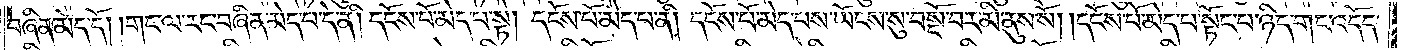བཞིན་མེད་དོ། །གང་ལ་རང་བཞིན་མེད་པ་དེ་ནི། དངོས་པོ་མེད་པ་སྟེ། དངོས་པོ་མེད་པ་ནི། དངོས་པོ་མེད་པས་ཡོངས་སུ་བསྔོ་བར་མི་ནུས་སོ། །དངོས་པོ་མེད་པ་སྟོང་པ་ཉིད་གང་འདོད་
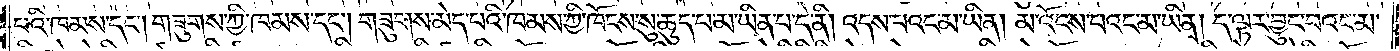པའི་ཁམས་དང༌། གཟུགས་ཀྱི་ཁམས་དང༌། གཟུགས་མེད་པའི་ཁམས་ཀྱི་ཁོངས་སུ་ཆུད་པ་མ་ཡིན་པ་དེ་ནི། འདས་པའང་མ་ཡིན། མ་འོངས་པའང་མ་ཡིན། ད་ལྟར་བྱུང་བའང་མ་
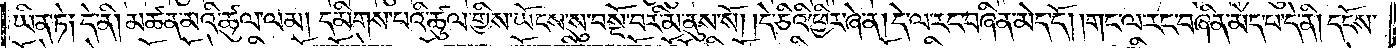ཡིན་ཏེ༑ དེ་ནི། མཚན་མའི་ཚུལ་ལམ། དམིགས་པའི་ཚུལ་གྱིས་ཡོངས་སུ་བསྔོ་བར་མི་ནུས་སོ། །དེ་ཅིའི་ཕྱིར་ཞེ་ན། དེ་ལ་རང་བཞིན་མེད་དོ། །གང་ལ་རང་བཞིན་མེད་པ་དེ་ནི། དངོས་
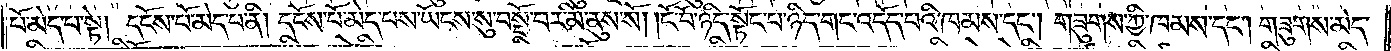པོ་མེད་པ་སྟེ། དངོས་པོ་མེད་པ་ནི། དངོས་པོ་མེད་པས་ཡོངས་སུ་བསྔོ་བར་མི་ནུས་སོ། །ངོ་བོ་ཉིད་སྟོང་པ་ཉིད་གང་འདོད་པའི་ཁམས་དང༌། གཟུགས་ཀྱི་ཁམས་དང༌། གཟུགས་མེད་
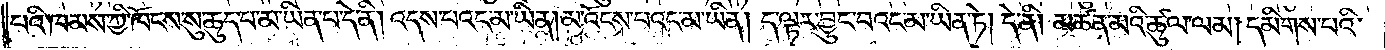པའི་ཁམས་ཀྱི་ཁོངས་སུ་ཆུད་པ་མ་ཡིན་པ་དེ་ནི། འདས་པའང་མ་ཡིན། མ་འོངས་པའང་མ་ཡིན། ད་ལྟར་བྱུང་བའང་མ་ཡིན་ཏེ། དེ་ནི། མཚན་མའི་ཚུལ་ལམ། དམིགས་པའི་
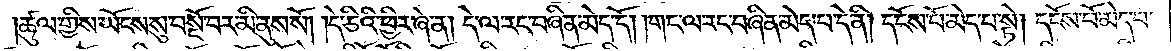ཚུལ་གྱིས་ཡོངས་སུ་བསྔོ་བར་མི་ནུས་སོ། །དེ་ཅིའི་ཕྱིར་ཞེ་ན། དེ་ལ་རང་བཞིན་མེད་དོ། །གང་ལ་རང་བཞིན་མེད་པ་དེ་ནི། དངོས་པོ་མེད་པ་སྟེ། དངོས་པོ་མེད་པ་
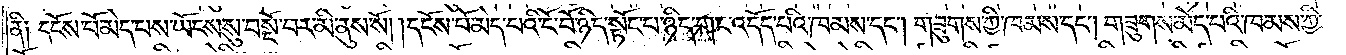ནི༑ དངོས་པོ་མེད་པས་ཡོངས་སུ་བསྔོ་བར་མི་ནུས་སོ། །དངོས་པོ་མེད་པའི་ངོ་བོ་ཉིད་སྟོང་པ་ཉིད་གང་འདོད་པའི་ཁམས་དང༌། གཟུགས་ཀྱི་ཁམས་དང༌། གཟུགས་མེད་པའི་ཁམས་ཀྱི་
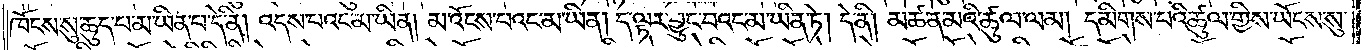ཁོངས་སུ་ཆུད་པ་མ་ཡིན་པ་དེ་ནི། འདས་པའང་མ་ཡིན། མ་འོངས་པའང་མ་ཡིན། ད་ལྟར་བྱུང་པའང་མ་ཡིན་ཏེ། དེ་ནི། མཚན་མའི་ཚུལ་ལམ། དམིགས་པའི་ཚུལ་གྱིས་ཡོངས་སུ་
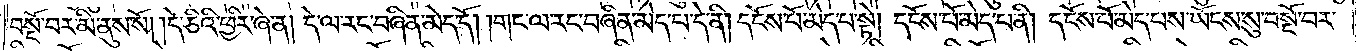བསྔོ་བར་མི་ནུས་སོ། །དེ་ཅིའི་ཕྱིར་ཞེ་ན། དེ་ལ་རང་བཞིན་མེད་དོ། །གང་ལ་རང་བཞིན་མེད་པ་དེ་ནི། དངོས་པོ་མེད་པ་སྟེ། དངོས་པོ་མེད་པ་ནི། དངོས་པོ་མེད་པས་ཡོངས་སུ་བསྔོ་བར་
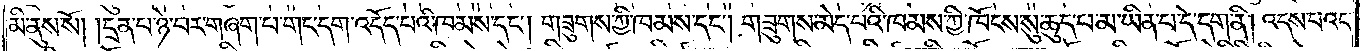མི་ནུས་སོ། །དྲན་པ་ཉེ་བར་གཞག་པ་གང་དག་འདོད་པའི་ཁམས་དང༌། གཟུགས་ཀྱི་ཁམས་དང༌། གཟུགས་མེད་པའི་ཁམས་ཀྱི་ཁོངས་སུ་ཆུད་པ་མ་ཡིན་པ་དེ་དག་ནི། འདས་པའང་
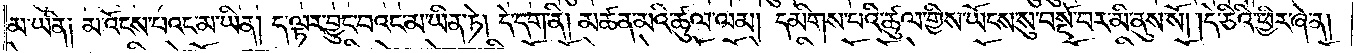མ་ཡིན། མ་འོངས་པའང་མ་ཡིན། ད་ལྟར་བྱུང་བའང་མ་ཡིན་ཏེ། དེ་དག་ནི། མཚན་མའི་ཚུལ་ལམ། དམིགས་པའི་ཚུལ་གྱིས་ཡོངས་སུ་བསྔོ་བར་མི་ནུས་སོ། །དེ་ཅིའི་ཕྱིར་ཞེ་ན།
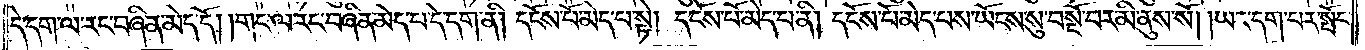དེ་དག་ལ་རང་བཞིན་མེད་དོ། །གང་ལ་རང་བཞིན་མེད་པ་དེ་དག་ནི། དངོས་པོ་མེད་པ་སྟེ། དངོས་པོ་མེད་པ་ནི། དངོས་པོ་མེད་པས་ཡོངས་སུ་བསྔོ་བར་མི་ནུས་སོ། །ཡང་དག་པར་སྤོང་
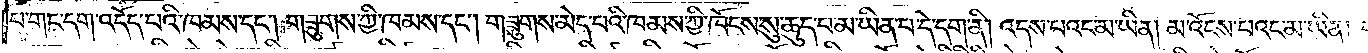པ་གང་དག་འདོད་པའི་ཁམས་དང༌། གཟུགས་ཀྱི་ཁམས་དང༌། གཟུགས་མེད་པའི་ཁམས་ཀྱི་ཁོངས་སུ་ཆུད་པ་མ་ཡིན་པ་དེ་དག་ནི། འདས་པའང་མ་ཡིན། མ་འོངས་པའང་མ་ཡིན། ད་
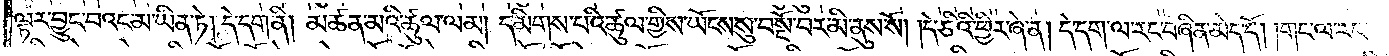ལྟར་བྱུང་བའང་མ་ཡིན་ཏེ། དེ་དག་ནི། མཚན་མའི་ཚུལ་ལམ། དམིགས་པའི་ཚུལ་གྱིས་ཡོངས་སུ་བསྔོ་བར་མི་ནུ་སོ། །དེ་ཅིའི་ཕྱིར་ཞེ་ན། དེ་དག་ལ་རང་བཞིན་མེད་དོ། །གང་ལ་རང་
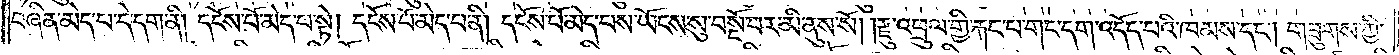བཞིན་མེད་པ་དེ་དག་ནི། དངོས་པོ་མེད་པ་སྟེ། དངོས་པོ་མེད་པ་ནི། དངོས་པོ་མེད་པས་ཡོངས་སུ་བསྔོ་བར་མི་ནུས་སོ། །རྫུ་འཕྲུལ་གྱི་རྐང་པ་གང་དག་འདོད་པའི་ཁམས་དང༌། གཟུགས་ཀྱི་
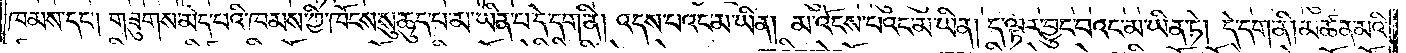ཁམས་དང༌། གཟུགས་མེད་པའི་ཁམས་ཀྱི་ཁོངས་སུ་ཆུད་པ་མ་ཡིན་པ་དེ་དག་ནི། འདས་པའང་མ་ཡིན། མ་འོངས་པའང་མ་ཡིན། ད་ལྟར་བྱུང་བའང་མ་ཡིན་ཏེ། དེ་དག་ནི། མཚན་མའི་
